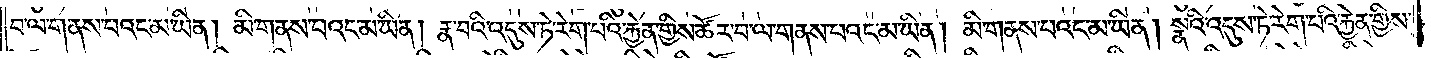བ་ལ་གནས་པའང་མ་ཡིན། མི་གནས་པའང་མ་ཡིན། རྣ་བའི་འདུས་ཏེ་རེག་པའི་རྐྱེན་གྱིས་ཚོར་བ་ལ་གནས་པའང་མ་ཡིན། མི་གནས་པའང་མ་ཡིན། སྣའི་འདུས་ཏེ་རེག་པའི་རྐྱེན་གྱིས་
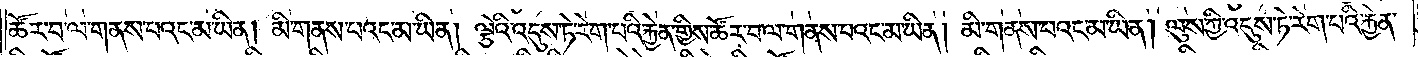ཚོར་བ་ལ་གནས་པའང་མ་ཡིན། མི་གནས་པའང་མ་ཡིན། ལྕེའི་འདུས་ཏེ་རེག་པའི་རྐྱེན་གྱིས་ཚོར་བ་ལ་གནས་པའང་མ་ཡིན། མི་གནས་པའང་མ་ཡིན། ལུས་ཀྱི་འདུས་ཏེ་རེག་པའི་རྐྱེན་
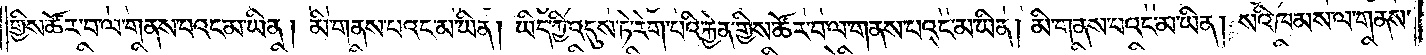གྱིས་ཚོར་བ་ལ་གནས་པའང་མ་ཡིན། མི་གནས་པའང་མ་ཡིན། ཡིད་ཀྱི་འདུས་ཏེ་རེག་པའི་རྐྱེན་གྱིས་ཚོར་བ་ལ་གནས་པའང་མ་ཡིན། མི་གནས་པའང་མ་ཡིན། སའི་ཁམས་ལ་གནས་
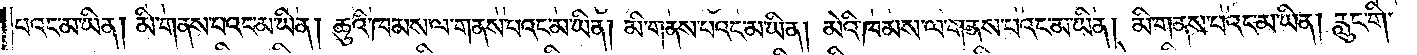པའང་མ་ཡིན། མི་གནས་པའང་མ་ཡིན། ཆུའི་ཁམས་ལ་གནས་པའང་མ་ཡིན། མི་གནས་པའང་མ་ཡིན། མེའི་ཁམས་ལ་གནས་པའང་མ་ཡིན། མི་གནས་པའང་མ་ཡིན། རླུང་གི་
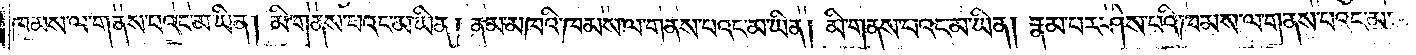ཁམས་ལ་གནས་པའང་མ་ཡིན། མི་གནས་པའང་མ་ཡིན། ནམ་མཁའི་ཁམས་ལ་གནས་པའང་མ་ཡིན། མི་གནས་པའང་མ་ཡིན། རྣམ་པར་ཤེས་པའི་ཁམས་ལ་གནས་པའང་མ་
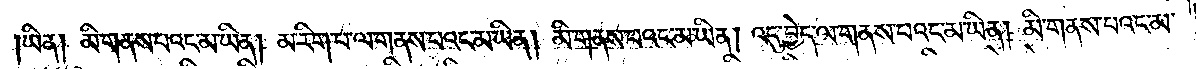ཡིན། མི་གནས་པའང་མ་ཡིན། མ་རིག་པ་ལ་གནས་པའང་མ་ཡིན། མི་གནས་པའང་མ་ཡིན། འདུ་བྱེད་ལ་གནས་པའང་མ་ཡིན། མི་གནས་པའང་མ་
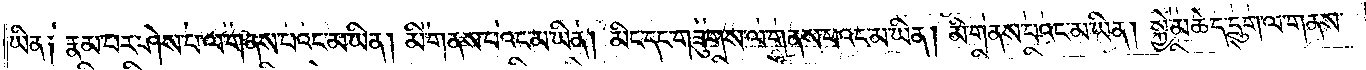ཡིན༑ རྣམ་པར་ཤེས་པ་ལ་གནས་པའང་མ་ཡིན། མི་གནས་པའང་མ་ཡིན། མིང་དང་གཟུགས་ལ་གནས་པའང་མ་ཡིན། མི་གནས་པའང་མ་ཡིན། སྐྱེ་མཆེད་དྲུག་ལ་གནས་
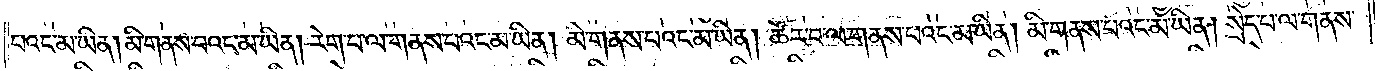པའང་མ་ཡིན། མི་གནས་པའང་མ་ཡིན། རེག་པ་ལ་གནས་པའང་མ་ཡིན། མི་གནས་པའང་མ་ཡིན། ཚོར་བ་ལ་གནས་པའང་མ་ཡིན། མི་གནས་པའང་མ་ཡིན། སྲེད་པ་ལ་གནས་
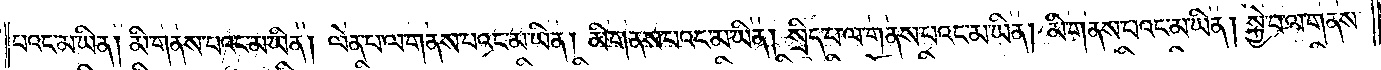པའང་མ་ཡིན། མི་གནས་པའང་མ་ཡིན། ལེན་པ་ལ་གནས་པའང་མ་ཡིན། མི་གནས་པའང་མ་ཡིན། སྲིད་པ་ལ་གནས་པའང་མ་ཡིན། མི་གནས་པའང་མ་ཡིན། སྐྱེ་བ་ལ་གནས་
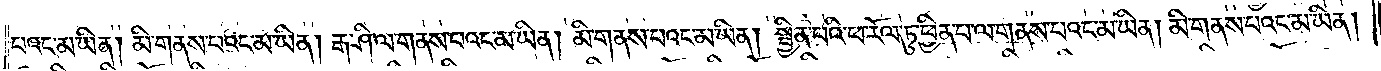པའང་མ་ཡིན། མི་གནས་པའང་མ་ཡིན། རྒ་ཤི་ལ་གནས་པའང་མ་ཡིན། མི་གནས་པའང་མ་ཡིན། སྦྱིན་པའི་ཕ་རོལ་ཏུ་ཕྱིན་པ་ལ་གནས་པའང་མ་ཡིན། མི་གནས་པའང་མ་ཡིན།
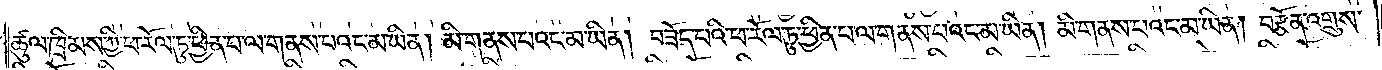ཚུལ་ཁྲིམས་ཀྱི་ཕ་རོལ་ཏུ་ཕྱིན་པ་ལ་གནས་པའང་མ་ཡིན། མི་གནས་པའང་མ་ཡིན། བཟོད་པའི་ཕ་རོལ་ཏུ་ཕྱིན་པ་ལ་གནས་པའང་མ་ཡིན། མི་གནས་པའང་མ་ཡིན། བརྩོན་འགྲུས་
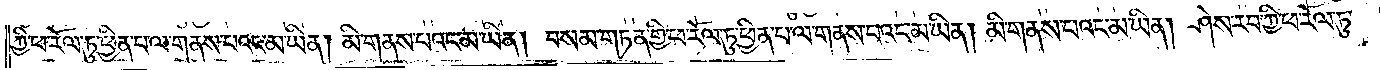ཀྱི་ཕ་རོལ་ཏུ་ཕྱིན་པ་ལ་གནས་པའང་མ་ཡིན། མི་གནས་པའང་མ་ཡིན། བསམ་གཏན་གྱི་ཕ་རོལ་ཏུ་ཕྱིན་པ་ལ་གནས་པའང་མ་ཡིན། མི་གནས་པའང་མ་ཡིན། ཤེས་རབ་ཀྱི་ཕ་རོལ་ཏུ་
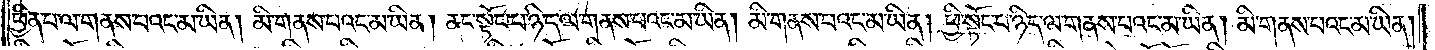ཕྱིན་པ་ལ་གནས་པའང་མ་ཡིན། མི་གནས་པའང་མ་ཡིན། ནང་སྟོང་པ་ཉིད་ལ་གནས་པའང་མ་ཡིན། མི་གནས་པའང་མ་ཡིན། ཕྱི་སྟོང་པ་ཉིད་ལ་གནས་པའང་མ་ཡིན། མི་གནས་པའང་མ་ཡིན།
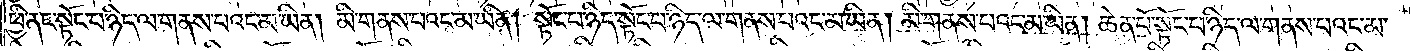ཕྱི་ནང་སྟོང་པ་ཉིད་ལ་གནས་པའང་མ་ཡིན། མི་གནས་པའང་མ་ཡིན། སྟོང་པ་ཉིད་སྟོང་པ་ཉིད་ལ་གནས་པའང་མ་ཡིན། མི་གནས་པའང་མ་ཡིན། ཆེན་པོ་སྟོང་པ་ཉིད་ལ་གནས་པའང་མ་
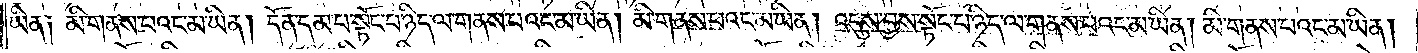ཡི༏ མི་གནས་པའང་མ་ཡིན། དོན་དམ་པ་སྟོང་པ་ཉིད་ལ་གནས་པའང་མ་ཡིན། མི་གནས་པའང་མ་ཡིན། འདུས་བྱས་སྟོང་པ་ཉིད་ལ་གནས་པའང་མ་ཡིན། མི་གནས་པའང་མ་ཡིན།
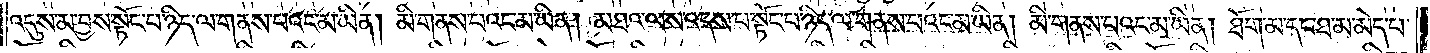འདུས་མ་བྱས་སྟོང་པ་ཉིད་ལ་གནས་པའང་མ་ཡིན། མི་གནས་པའང་མ་ཡིན། མཐའ་ལས་འདས་པ་སྟོང་པ་ཉིད་ལ་གནས་པའང་མ་ཡིན། མི་གནས་པའང་མ་ཡིན། ཐོག་མ་དང་ཐ་མ་མེད་པ་
